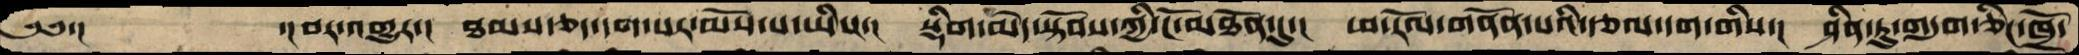༄༅་།     ་།བར་འགྱུར་།   ཐམས་ཅད་དག་པར་མོས་པ་ཡིས་།   སྡིག་མེད་སྟོབས་ཀྱི་ངོ་མཐོན་དུ་།   ཕ་རོལ་གནོན་པའི་རྩལ་དག་གིས་།   ཤིན་ཏུ་གདུག་ཅིང་ཁྲོ་
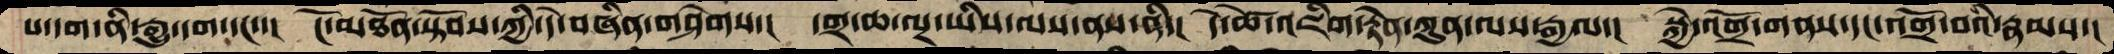པ་དག་ནི་རྒྱུ་དག་དང་་།   ངོ་མཐོན་སྟོབས་ཀྱི་དེ་བཞིན་གཤེགས་།  དགྲ་ཆ་ལྔ་ཡིས་ལས་ནས་ནི་།  དེ་ཚེ་འཇིག་རྟེན་ཀུན་ལས་རྒྱལ་།  སྐྱེ་འགྲོ་གནས་དང་འགྲོ་བའི་རྣམས་།
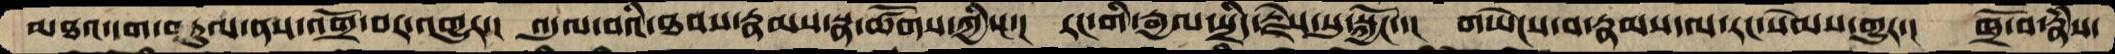མཐའ་དག་བཏུལ་ནས་འགྲོ་བར་འགྱུར་།  འདུལ་བའི་ཐབས་རྣམས་སྣ་ཚོགས་ཀྱིས་།  རང་གི་རྒྱལ་སྲིད་རྗེས་སུ་སྐྱོང་་།  གཡེངས་བ་རྣམས་ལ་རང་སེམས་གྱུར་།  ཁྲོ་བོ་རྣཾས་
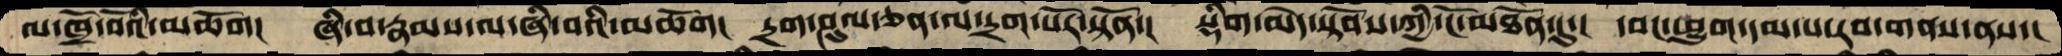ལ་ཁྲོ་བོའི་མཆོག།  ཞི་བ་རྣམས་ལ་ཞི་བའི་མཆོག།  དྲག་ཤུལ་ཅན་ལ་དྲག་པོར་སྟོན་།  སྡིག་མེད་སྟོབས་ཀྱི་ངོ་མཐོན་དུ་།  དབང་ཕྱུག་དམ་པ་རབ་གནས་ནས་།
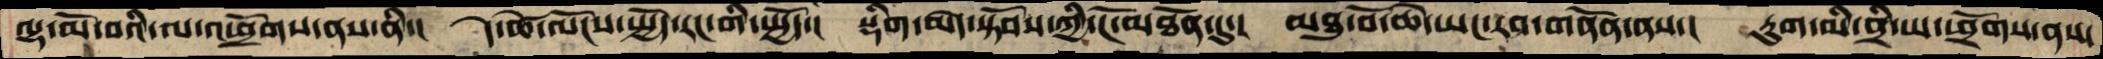ལྷ་མོ་བའི་ལ་འཕྲོགས་ནས་ནི་།  དེ་ཚེ་ལོངས་སྤྱོད་རང་གི་སྤྱོད་།  སྡིག་མེད་སྟོབས་ཀྱི་ངོ་མཐོན་དུ་།  མཐུ་བོ་ཆེ་ཡང་རབ་གནོན་ནས་།  རུག་མི་ནྲི་ཡ་ཕྲོགས་ནས།
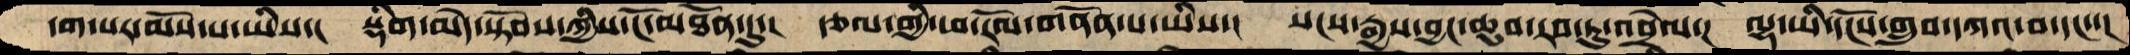དག་པར་མོས་པ་ཡིས་།   སྡིག་མེད་སྟོབས་ཀྱིས་ངོ་མཐོན་དུ་།  རྩལ་གྱི་ཕ་རོལ་གནོན་པ་ཡིས་།  སངས་རྒྱས་བྱང་ཆུབ་རབ་ཏུ་འབྲེལ་།  ལྷ་ཡི་དངོས་གྲུབ་དཀའ་བ་དང་་།
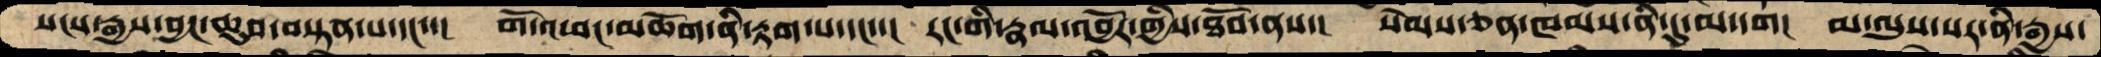སངས་རྒྱས་བྱང་ཆུབ་བསྟན་པ་དང་་།  གོ་འཕང་མཆོག་ནི་རྟག་པ་དང་་།  རང་གི་རྣལ་འབྱོར་གྱིས་ཐོབ་ནས་།  སེམས་ཅན་ཁམས་ནི་དུ་མ་དག།  མ་ལུས་སར་ནི་རྒྱས་
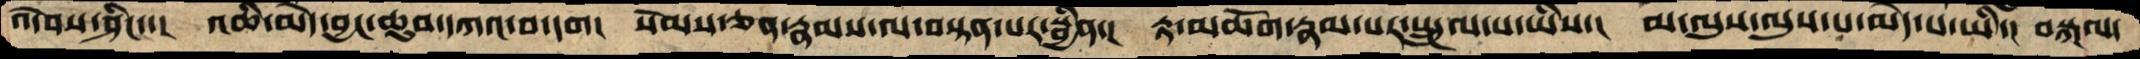འདེབས་ཤིང་་།  འཆི་མེད་བྱང་ཆུབ་དཀའ་བ་དག།  སེམས་ཅན་རྣམས་ལ་བསྟན་པར་སྦྱིན་།  རྟ་མཆོག་རྣམ་པར་སྤྲུལ་པ་ཡིས་།  མ་ལུས་ལུས་པ་མེད་པ་ཡི་།  བསྐལ་
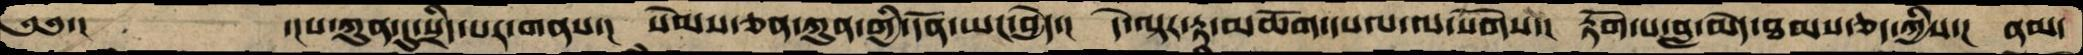༄༅་།             ་།པ་ཀུན་དུ་སྲིད་པར་གནས་།  སེམས་ཅན་ཀུན་གྱི་དོན་ཡང་བྱེད་།  དེ་ལྟར་རྟ་མཆོག་དཔལ་ལ་སོགས་།  རྟོག་པ་བླ་མེད་ཐམས་ཅད་ཀྱིས་།  ནམ་
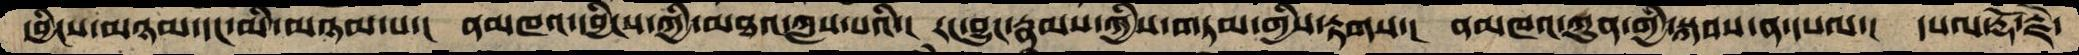དབྱིངས་མཉམ་དང་མི་མཉམ་པ་།  ནམཁའ་དབྱིངས་ཀྱི་མཐའ་ཀླས་པའི་།  རང་བྱུང་རྣམས་ཀྱིས་གཏམ་གྱིས་རྟགས་།  ནམཁའ་ཀུན་གྱི་སྐབས་ན་དཔལ་།  དཔལ་རྡོ་རྗེ་
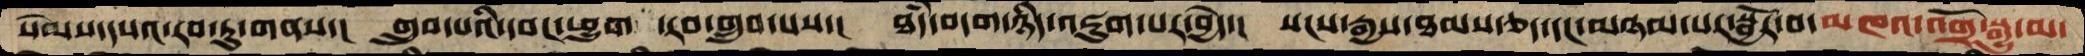སེམས་དཔའ་རབ་ཏུ་གནས་།  གྲུབ་པའི་དབང་ཕྱུག  ་རབ་གྲུབ་པས་།  ཐཾད་བདག་ཉིད་འཇུག་པར་བྱེད་།  སངས་རྒྱས་ཐམས་ཅད་དང་མཉམ་པར་སྦྱོར་བ་མཁའ་འགྲོ་སྒྱུ་མ་
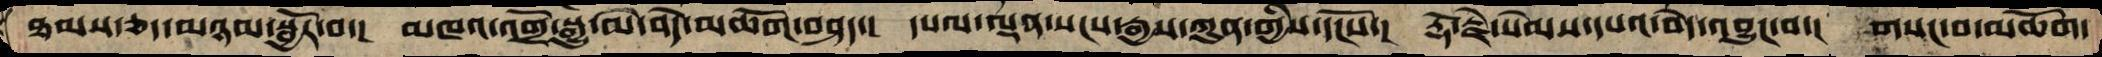ཐམས་ཅད་མཉམ་སྦྱོར་བ་།  མཁའ་འགྲོ་སྒྱུ་མ་བདེ་མཆོག་བཤད་།  དཔལ་ལྡན་སངས་རྒྱས་ཀུན་གྱིས་དངོས་།  རྡོ་རྗེ་སེམས་དཔའ་བདེ་འབྱུང་བ་།  གསང་བ་མཆོག་
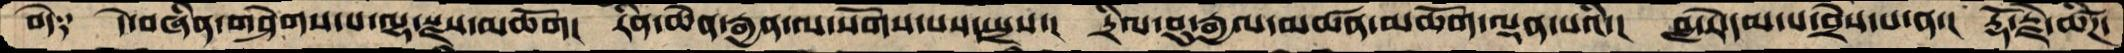བདེ༑   དེ་བཞིན་གཤེགས་པ་ལྷ་སྫས་མཆོག།  རིན་ཆེན་རྒྱན་ལ་སོགས་པས་སྤྲས་།  དྲིལ་བུ་རྒྱལ་མཚན་མཆོག་ལྡན་པའི་།  བླ་རེ་དམ་པ་བྲེས་པ་ན་།  རྡོ་རྗེ་ཚིཌ་
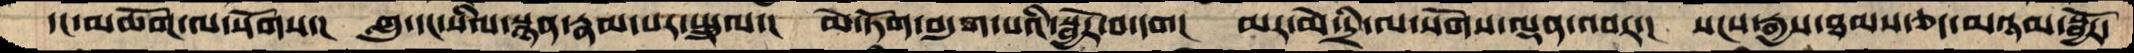དང་མཆོག་ལ་སོགས་།  གླུ་དང་སིལ་སྙན་རྣམ་པར་སྤྲུལ་།  མེ་ཏོག་བདུག་པའི་སྦྱོར་བ་དག།  མར་མེ་དྲི་ལ་སོགས་ལྡན་འབར་།  སངས་རྒྱས་ཐམས་ཅད་མཉམ་སྦྱོར་
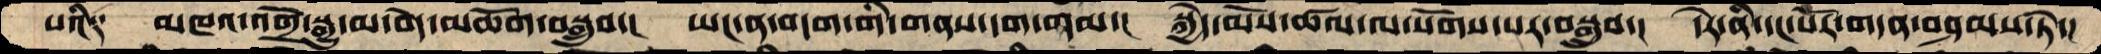པའི༑   མཁའ་འགྲོ་སྒྱུ་མ་བདེ་མཆོག་བསྒྲུབ་།  ཡང་ན་བདག་གི་གནས་དག་གམ་།  སྐྱེད་མོས་ཚལ་ལ་སོགས་པར་བསྒྲུབ་།  དེར་ནི་དང་པོར་གདན་བཤམས་ཏེ་།
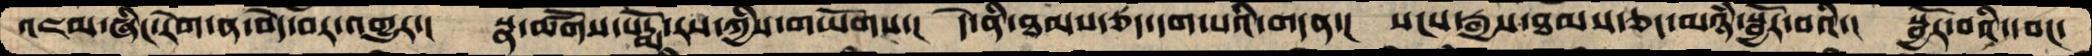འཇམ་ཞིང་རེག་ན་བདེ་བར་འགྱུར་།  སྣ་ཚོགས་པདྨོ་རས་ཀྱིས་གཡོགས་།  དེ་ནི་ཐམས་ཅད་དག་པའི་གདན་།  སངས་རྒྱས་ཐམས་ཅད་མཉཾ་སྦྱོར་བའི་། སྦྱོར་བའི་དབང་
